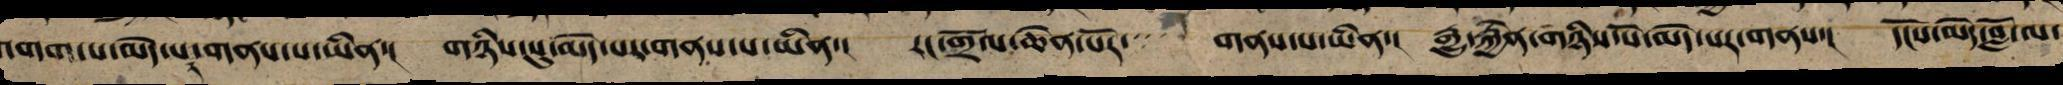འགག་པ་མེད་པར་གནས་པ་ཡིན་། གཉིས་སུ་མེད་པར་གནས་པ་ཡིན་། རང་གྲོལ་ཆེན་པོར་གནས་པ་ཡིན་། རྒྱུ་རྐྱེན་གཉེན་པོ་མེད་པར་གནས་། དངོས་མེད་བློ་ལ་
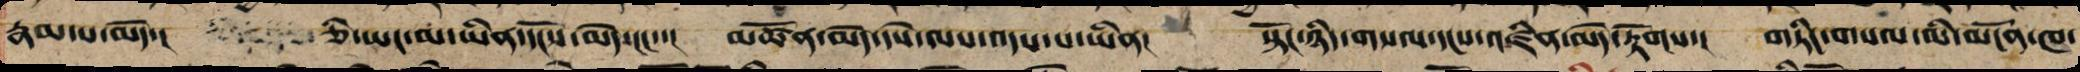རྣམ་པ་མེད་། ཅི་ཡང་མ་ཡིན་དངོས་མེད་ངང་་། མཚོན་མེད་དཔེ་ལས་འདས་པ་ཡིན་། སྟོང་ཉིད་གསལ་དངས་འཛིན་མེད་རྟོགས་། གཏིང་གསལ་མི་མངོན་ཁ་
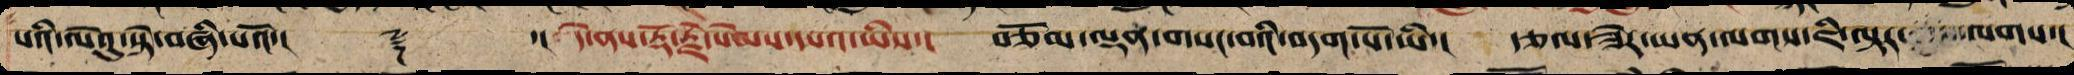པའི་ལེའུ་སྟེ་བཞི་པའོ་།། ༈ ་།། དེ་ནས་རྡོ་རྗེ་སེམས་དཔའ་ཡིས་། བཅོམ་ལྡན་གསང་བའི་བདག་པོ་ལ་། རྩལ་ཟེར་ཡན་ལག་ཇི་ལྟར་ལགས་།
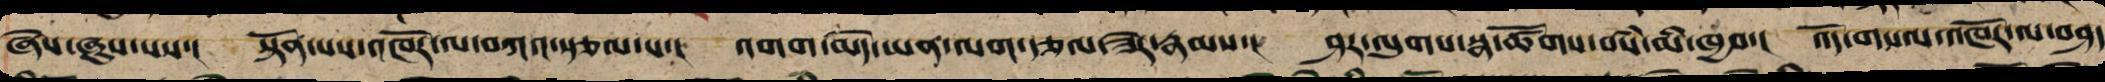ཞེས་ཞུས་པས་། སྟོན་པས་འཁོར་ལ་བཀའ་སྩལ་པ་། འགག་མེད་ཡན་ལག་རྩལ་ཟེར་རྣམས་། ཤར་ལུགས་སྣ་ཚོགས་བསཾ་མི་ཁྱབ་། འོད་གསལ་འཁོར་ལ་བཤད་
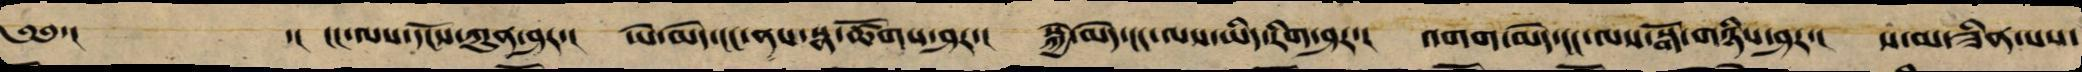༄༅་།  ་། ངང་ལས་དངོས་ཀུན་ཤར་། ཡེ་མེད་ངང་ལས་སྣ་ཚོགས་ཤར་། སྐྱེ་མེད་ངང་ལས་ཡིད་རིག་ཤར་། འགག་མེད་ངང་ལས་སྒོ་གཉིས་ཤར་། ས་མ་ཟིན་པས་
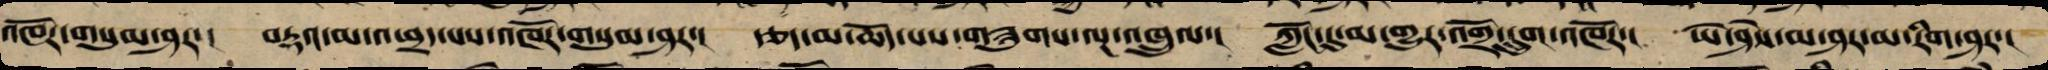འཁོར་གསུམ་ཤར་། བརྡའ་མ་འཕྲད་པས་འཁོར་གསུམ་ཤར་། རྩད་མ་ཆོད་པས་གཟུགས་ལྔར་འཁྲུལ་། ཀློང་དུ་མ་གྱུར་འགྲོ་དྲུག་འཁོར་། ཡེ་ཤེས་མ་ཤར་མ་རིག་ཤར་།
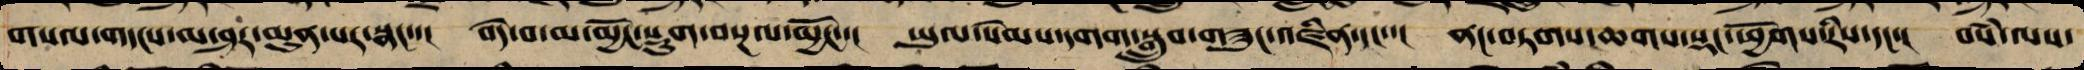གསལ་གདངས་མ་ཤར་མུན་པར་སྣང་་། བདེ་བ་མ་མྱོང་སྡུག་བསྔལ་མྱོང་་། ཡུལ་སེམས་དགག་སྒྲུབ་གཟུང་འཛིན་དང་་། སྣང་བཏགས་ཆགས་སྡང་ཕྱོགས་རིས་དང་། བསཾ་ལས་
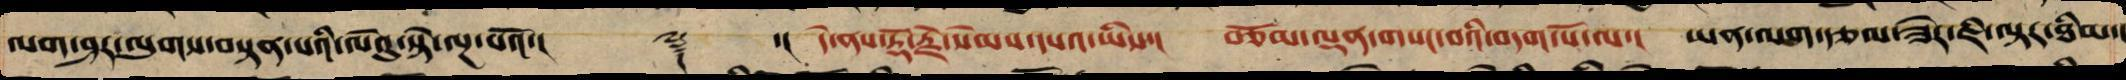ལག་ཤར་ལུགས་བསྟན་པའི་ལེའུ་སྟེ་ལྔ་པའོ་།། ༈ ་།། དེ་ནས་རྡོ་རྗེ་སེམས་དཔའ་ཡིས་། བཅོམ་ལྡན་གསང་བའི་བདག་པོ་ལ་། ཡན་ལག་རྩལ་ཟེར་སྙིང་པོར་ཇི་ལྟར་ཐིམ་།
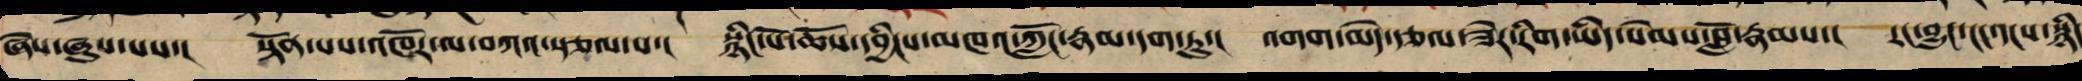ཞེས་ཞུས་པས་། སྟོན་པས་འཁོར་ལ་བཀའ་སྩལ་པ་། སྙིང་པོ་ཆོས་དབྱིངས་མཁའ་ཀློང་རྣམ་དག་ཏུ་། འགག་མེད་རྩལ་ཟེར་རིག་ཡིད་སེམས་བློ་རྣམས་། རང་བྱུང་ངང་དངས་སྙིང
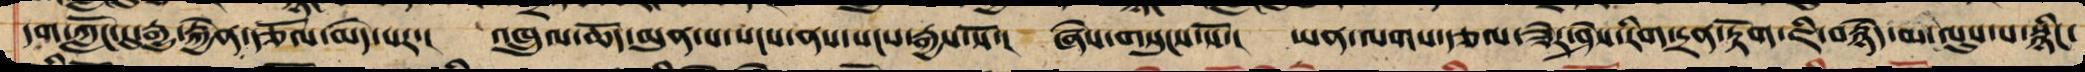དག་ཀླུང་དུ་རྒྱུ་རྐྱེན་རྩོལ་མེད་པར་། འཁྲུལ་ཆོད་མུན་པ་སངས་ནས་སངས་རྒྱས་སོ་། ཞེས་གསུངས་སོ་། ཡན་ལག་རྩལ་ཟེར་ཤེས་རིག་དྲན་རྟོག་ཇི་སྙེད་མ་ལུས་པ་སྙིང་
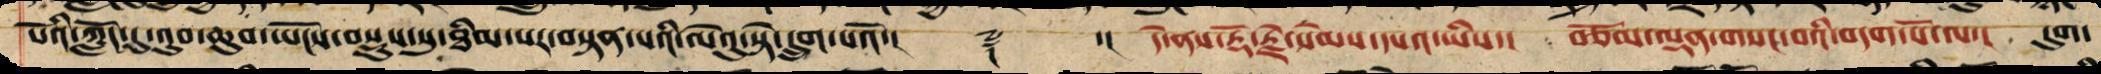པོའི་ཀློང་དུ་འུབ་ཆུབ་ཡོངས་བསྡུས་སུ་ཐིམ་པར་བསྟན་པའི་ལེའུ་སྟེ་དྲུག་པའོ་།། ༈ ་།། དེ་ནས་རྡོ་རྗེ་སེམས་དཔའ་ཡིས་། བཅོམ་ལྡན་གསང་བའི་བདག་པོ་ལ་། དུག་
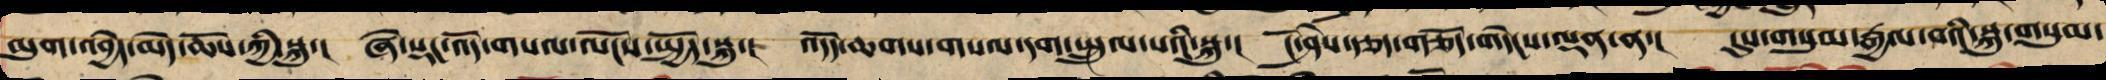མུག་འབྱེད་མེད་ཆོས་ཀྱི་སྐུ་། ཞེ་སྡང་འོད་གསལ་ལོངས་སྤྱོད་སྐུ་། འདོད་ཆགས་གསལ་དག་སྤྲུལ་པའི་སྐུ་། ངོ་ཤེས་རྩད་གཅོད་གདེང་ལྡན་ན་། དུས་གསུམ་རྒྱལ་བའི་སྐུ་གསུམ་
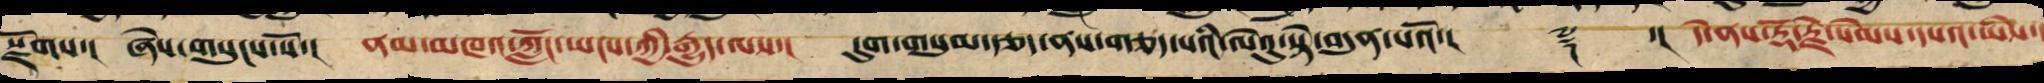སྫོགས་། ཞེས་གསུངས་སོ་། ནམ་མཁའ་ཀློང་ཡངས་ཀྱི་རྒྱུད་ལས་། དུག་གསུམ་རྩད་ནས་གཅད་པའི་ལེའུ་སྟེ་བདུན་པའོ་།། ༈ ་།། དེ་ནས་རྡོ་རྗེ་སེམས་དཔའ་ཡིས་།
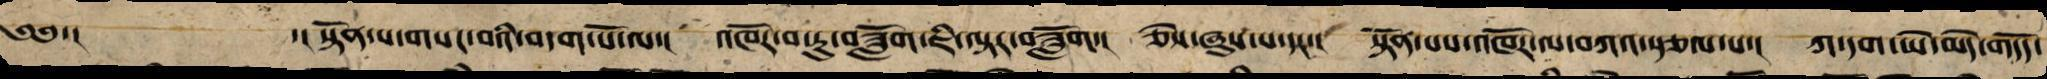༄༅་། ་། སྟོན་པས་གསང་བའི་བདག་པོ་ལ་། འཁོར་བ་རུ་བཟློག་ཇི་ལྟར་བཟློག། ཅེས་ཞུས་པ་དང་་། སྟོན་པས་འཁོར་ལ་བཀའ་སྩལ་པ་། ཀ་དག་ཡེ་མེད་གདོད་
